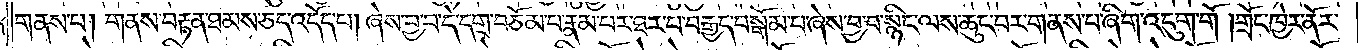གནས་པ། གནས་བརྟན་ཐམས་ཅད་འདོད་པ། ཞེས་བྱ་བ་དེ་དགྲ་བཅོམ་པ་རྣམ་པར་ཐར་པ་བརྒྱད་བསྒོམ་པ་ཞེས་བྱ་བ་སྙིང་ལས་ཆུང་བར་གནས་པ་ཞིག་འདུག་གོ །གྲོང་ཁྱེར་ནོར་
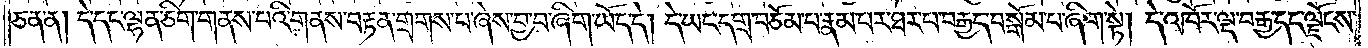ཅན་ན། དེ་དང་ལྷན་ཅིག་གནས་པའི་གནས་བརྟན་གྲགས་པ་ཞེས་བྱ་བ་ཞིག་ཡོད་དེ། དེ་ཡང་དགྲ་བཅོམ་པ་རྣམ་པར་ཐར་པ་བརྒྱད་བསྒོམ་པ་ཞིག་སྟེ། དེ་འཁོར་ལྔ་བརྒྱ་དང་ལྗོངས་
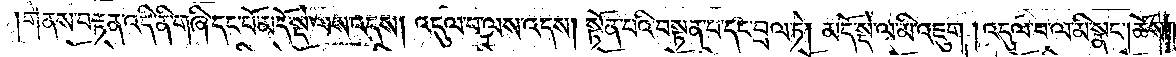།གནས་བརྟན་འདི་ནི་གཞི་དང་པོ་མདོ་སྡེ་ལས་འདས། འདུལ་བ་ལས་འདས། སྟོན་པའི་བསྟན་པ་དང་བྲལ་ཏེ། མདོ་སྡེ་ལ་མི་འཇུག །འདུལ་བ་ལ་མི་སྣང༌། ཆོས་
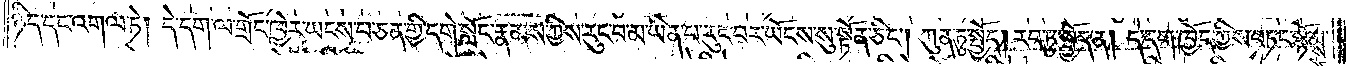ཉིད་དང་འགལ་ཏེ། དེ་དག་ལ་གྲོང་ཁྱེར་ཡངས་པ་ཅན་གྱི་དགེ་སློང་རྣམས་ཀྱིས་རུང་བ་མ་ཡིན་པ་རུང་བར་ཡོངས་སུ་སྟོན་ཅིང༌། ཀུན་ཏུ་སྤྱོད། རབ་ཏུ་སྤྱོད་ན། དེ་དག་ཁྱོད་ཀྱིས་བཏང་སྙོམས་
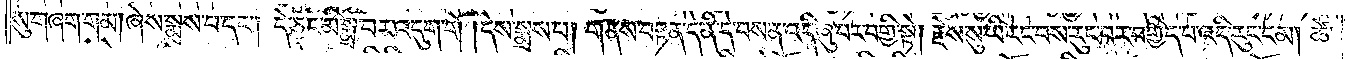སུ་གཞག་གམ། ཞེས་སྨྲས་པ་དང༌། དེ་ཅང་མི་སྨྲ་བར་འདུག་གོ །དེས་སྨྲས་པ། གནས་བརྟན་དེ་ནི་དེ་བས་ན་འདི་ཞུ་བར་བགྱི་སྟེ། རྗེས་སུ་ཡི་རང་བས་རུང་བར་བགྱིད་པ་འདི་རུང་ངམ། ཚེ་
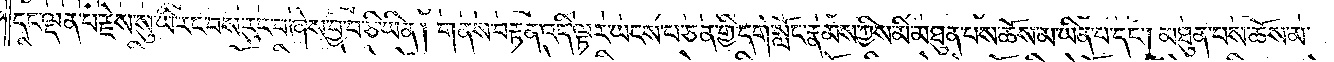དང་ལྡན་པ་རྗེས་སུ་ཡི་རང་བས་རུང་བ་ཞེས་བྱ་བ་ཅི་ཡིན། གནས་བརྟན་འདི་ལྟར་ཡངས་པ་ཅན་གྱི་དགེ་སློང་རྣམས་ཀྱིས་མི་མཐུན་པས་ཆོས་མ་ཡིན་པ་དང༌། མཐུན་པས་ཆོས་མ་
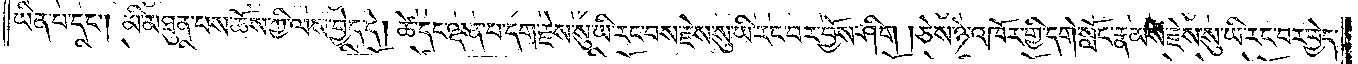ཡིན་པ་དང༌། མི་མཐུན་པས་ཆོས་ཀྱི་ལས་བྱེད་དེ། ཚེ་དང་ལྡན་པ་དག་རྗེས་སུ་ཡི་རང་བས་རྗེས་སུ་ཡི་རང་བར་བྱོས་ཤིག །ཅེས་ཉེ་འཁོར་གྱི་དགེ་སློང་རྣམས་རྗེས་སུ་ཡི་རང་བར་བྱེད་
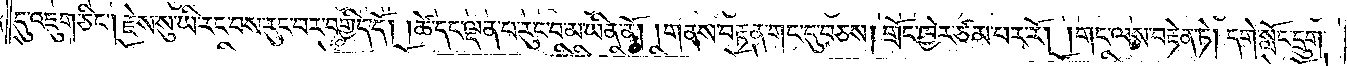དུ་འཇུག་ཅིང༌། རྗེས་སུ་ཡི་རང་བས་རུང་བར་བགྱིད་དོ། །ཚེ་དང་ལྡན་པ་རུང་བ་མ་ཡིན་ནོ། །གནས་བརྟན་གང་དུ་བཅས། གྲོང་ཁྱེར་ཙམ་པར་རོ། །གང་ལས་བརྟེན་ཏེ། དགེ་སློང་དྲུག་
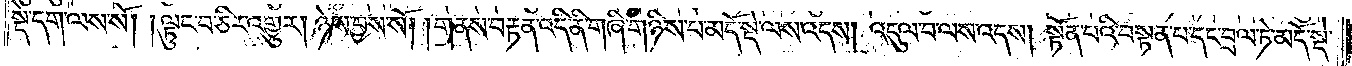སྡེ་དག་ལས་སོ། །ལྟུང་བ་ཅིར་འགྱུར། ཉེས་བྱས་སོ། །གནས་བརྟན་འདི་ནི་གཞི་གཉིས་པ་མདོ་སྡེ་ལས་འདས། འདུལ་བ་ལས་འདས། སྟོན་པའི་བསྟན་པ་དང་བྲལ་ཏེ་མདོ་སྡེ་
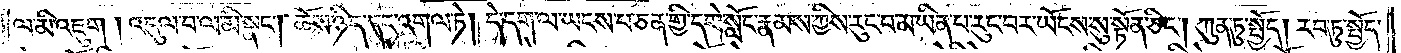ལ་མི་འཇུག །འདུལ་བ་ལ་མི་སྣང༌། ཆོས་ཉིད་དང་འགལ་ཏེ། དེ་དག་ལ་ཡངས་པ་ཅན་གྱི་དགེ་སློང་རྣམས་ཀྱིས་རུང་བ་མ་ཡིན་པ་རུང་བར་ཡོངས་སུ་སྟོན་ཅིང༌། ཀུན་ཏུ་སྤྱོད། རབ་ཏུ་སྤྱོད་
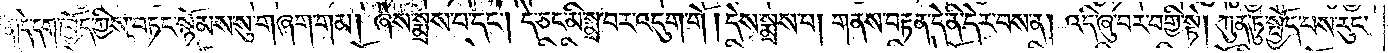ན༑ དེ་དག་ཁྱོད་ཀྱིས་བཏང་སྙོམས་སུ་གཞག་གམ། ཞེས་སྨྲས་པ་དང༌། དེ་ཅང་མི་སྨྲ་བར་འདུག་གོ། དེས་སྨྲས་པ། གནས་བརྟན་དེ་ནི་དེར་བས་ན། འདི་ཞུ་བར་བགྱི་སྟེ། ཀུན་ཏུ་སྤྱོད་པས་རུང་
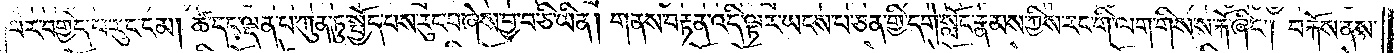བར་བགྱིད་པ་རུང་ངམ། ཚེ་དང་ལྡན་པ་ཀུན་ཏུ་སྤྱོད་པས་རུང་བ་ཞེས་བྱ་བ་ཅི་ཡིན། གནས་བརྟན་འདི་ལྟར་ཡངས་པ་ཅན་གྱི་དགེ་སློང་རྣམས་ཀྱིས་རང་གི་ལག་གིས་ས་རྐོས་ཞིང༌། བརྐོས་ནས་
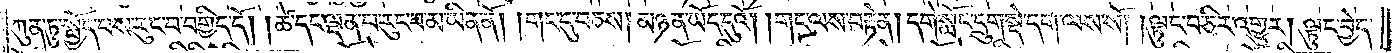ཀུན་ཏུ་སྤྱོད་པས་རུང་བ་བགྱིད་དོ། །ཚེ་དང་ལྡན་པ་རུང་བ་མ་ཡིན་ནོ། །གང་དུ་བཅས། མཉན་ཡོད་དུའོ། །གང་ལས་བརྟེན། དགེ་སློང་དྲུག་སྡེ་དག་ལས་སོ། །ལྟུང་བ་ཅིར་འགྱུར། ལྟུང་བྱེད་
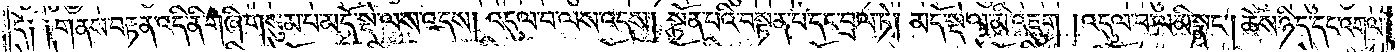དོ༑ ༑གནས་བརྟན་འདི་ནི་གཞི་གསུམ་པ་མདོ་སྡེ་ལས་འདས། འདུལ་བ་ལས་འདས། སྟོན་པའི་བསྟན་པ་དང་བྲལ་ཏེ། མདོ་སྡེ་ལ་མི་འཇུག །འདུལ་བ་ལ་མི་སྣང༌། ཆོས་ཉིད་དང་འགལ་
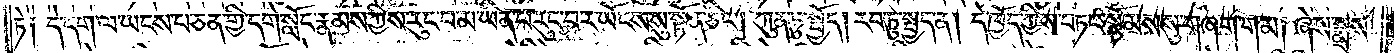ཏེ༑ དེ་དག་ལ་ཡངས་པ་ཅན་གྱི་དགེ་སློང་རྣམས་ཀྱིས་རུང་བ་མ་ཡིན་པ་རུང་བར་ཡོངས་སུ་སྟོན་ཅིང༌། ཀུན་ཏུ་སྤྱོད། རབ་ཏུ་སྤྱད་ན། དེ་ཁྱོད་ཀྱིས་བཏང་སྙོམས་སུ་གཞག་གམ། ཞེས་སྨྲས་
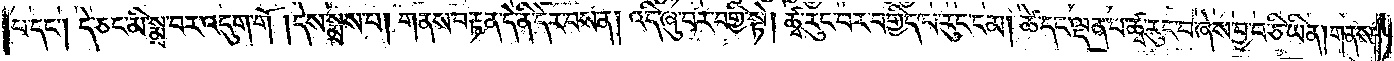པ་དང༌། དེ་ཅང་མི་སྨྲ་བར་འདུག་གོ །དེས་སྨྲས་པ། གནས་བརྟན་དེ་ནི་དེར་བས་ན། འདི་ཞུ་བར་བགྱི་སྟེ། ཚྭ་རུང་བར་བགྱིད་པ་རུང་ངམ། ཚེ་དང་ལྡན་པ་ཚྭ་རུང་བ་ཞེས་བྱ་བ་ཅི་ཡིན། གནས་
